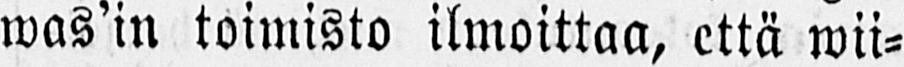was'in toimisto ilmoittaa, että wii-
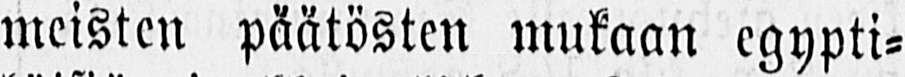meisten päätösten mukaan egypti-
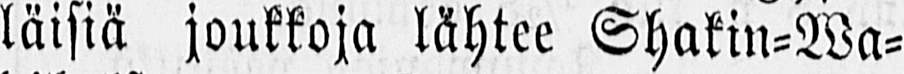läisiä joukkoja lähtee Shakin-Wa-
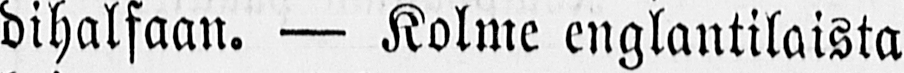dihalsaan. — Kolme englantilaista
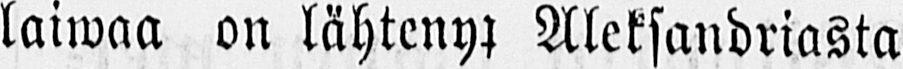laiwaa on lähteny Aleksandriasta
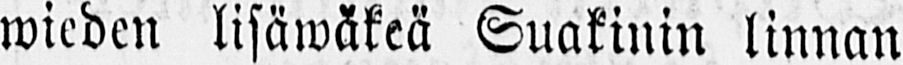wieden lisäwäkeä Suakinin linnan
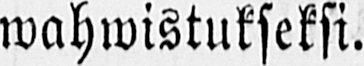wahwistukseksi.
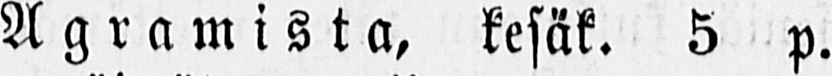Agramista, kesäk. 5 p.
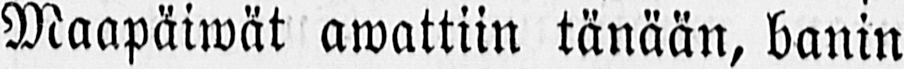Maapäiwät awattiin tänään, banin
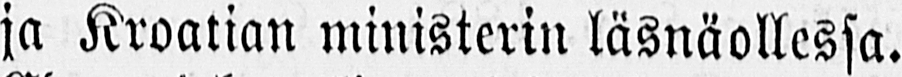ja Kroatian ministerin läsnäollessa.
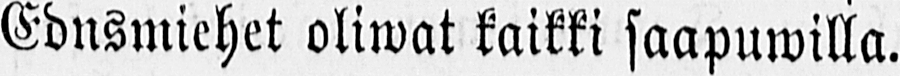Ednsmiehet oliwat kaikki saapuwilla.
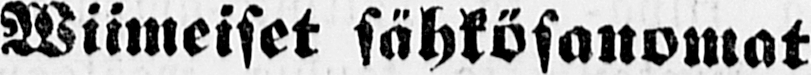Wiimeiset sähkösanomat.
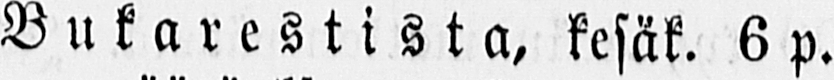Bukarestista, kesäk. 6 p.
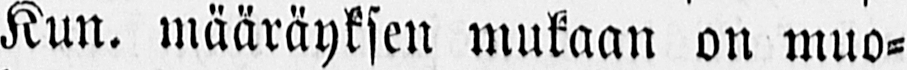Kun. määräyksen mukaan on muo-
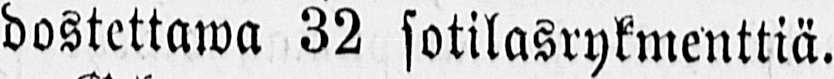dostettawa 32 sotilasrykmenttiä.
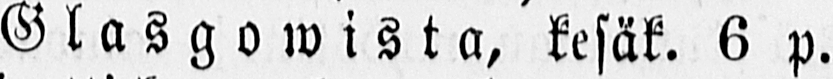Glasgowista, kesäk. 6 p.
